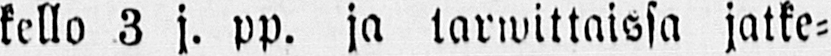kello 3 j. pp. ja tarwittaissa jatke-
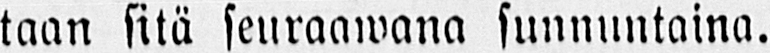taan sitä seuraawana sunnuntaina.
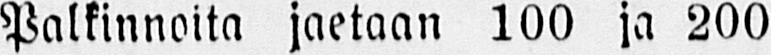Palkinnotta jaetaan 100 ja 200
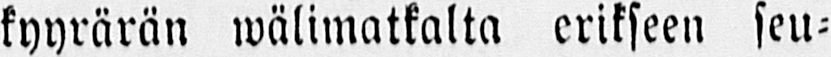kyyrärän wälimatkalta erikseen seu-
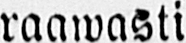raawasti
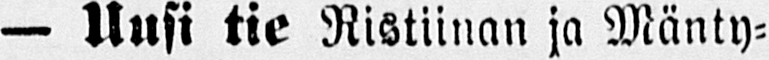— Uusi tie Ristiinan ja Mänty-
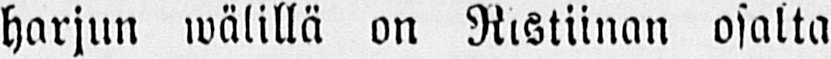harjun wälillä on Ristiinan osalta
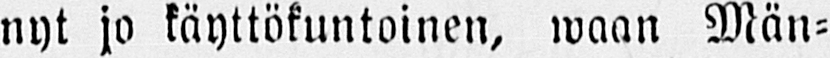nyt jo käyttökuntoinen, waan Män-
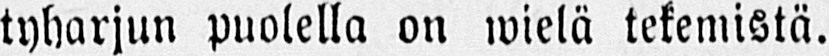tyharjun puolella on wielä tekemistä.
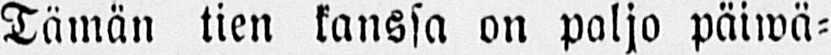Tämän tien kanssa on paljo päiwä-
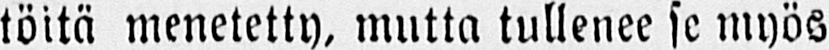töitä menetetty, mutta tullenee se myös
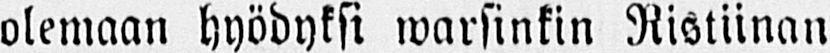olemaan hyödyksi warsinkin Ristiinan
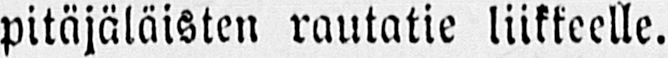pitäjäläisten rautatie liikkeelle.
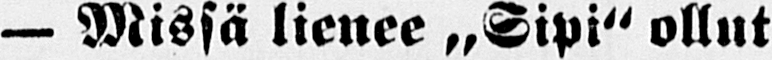— Missä lienee „Sipi" ollut
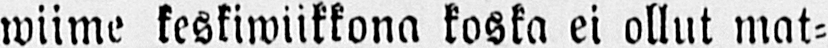wiime keskiwiikkona koska ei ollut mat-
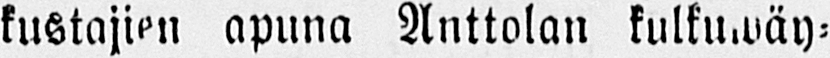kustajien apuna Anttolan kulkuwäy-
